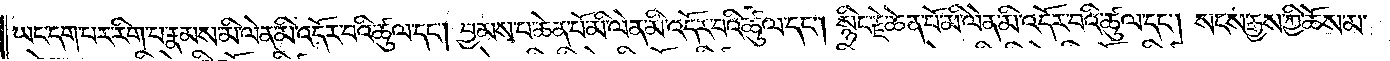ཡང་དག་པར་རིག་པ་རྣམས་མི་ལེན་མི་འདོར་བའི་ཚུལ་དང༌། བྱམས་པ་ཆེན་པོ་མི་ལེན་མི་འདོར་བའི་ཚུལ་དང༌། སྙིང་རྗེ་ཆེན་པོ་མི་ལེན་མི་འདོར་བའི་ཚུལ་དང༌། སངས་རྒྱས་ཀྱི་ཆོས་མ་
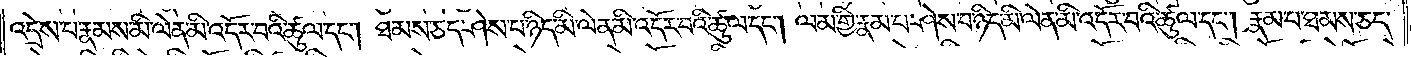འདྲེས་པ་རྣམས་མི་ལེན་མི་འདོར་བའི་ཚུལ་དང༌། ཐམས་ཅད་ཤེས་པ་ཉིད་མི་ལེན་མི་འདོར་བའི་ཚུལ་དང༌། ལམ་གྱི་རྣམ་པ་ཤེས་པ་ཉིད་མི་ལེན་མི་འདོར་བའི་ཚུལ་དང༌། རྣམ་པ་ཐམས་ཅད་
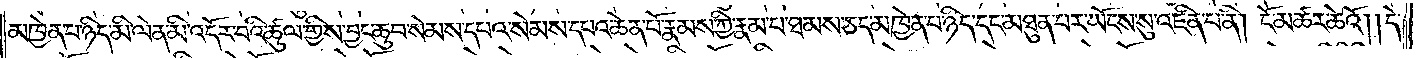མཁྱེན་པ་ཉིད་མི་ལེན་མི་འདོར་བའི་ཚུལ་གྱིས་བྱང་ཆུབ་སེམས་དཔའ་སེམས་དཔའ་ཆེན་པོ་རྣམས་ཀྱི་རྣམ་པ་ཐམས་ཅད་མཁྱེན་པ་ཉིད་དང་མཐུན་པར་ཡོངས་སུ་འཛིན་པ་ནི། ངོ་མཚར་ཆེའོ། །དེ་
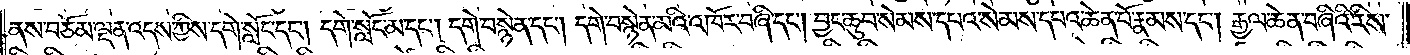ནས་བཅོམ་ལྡན་འདས་ཀྱིས་དགེ་སློང་དང༌། དགེ་སློང་མ་དང༌། དགེ་བསྙེན་དང༌། དགེ་བསྙེན་མའི་འཁོར་བཞི་དང༌། བྱང་ཆུབ་སེམས་དཔའ་སེམས་དཔའ་ཆེན་པོ་རྣམས་དང༌། རྒྱལ་ཆེན་བཞིའི་རིས་
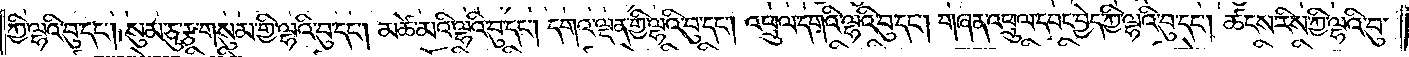ཀྱི་ལྷའི་བུ་དང༌། སུམ་ཅུ་རྩ་གསུམ་གྱི་ལྷའི་བུ་དང༌། མཚེ་མའི་ལྷའི་བུ་དང༌། དགའ་ལྡན་གྱི་ལྷའི་བུ་དང༌། འཕྲུལ་དགའི་ལྷའི་བུ་དང༌། གཞན་འཕྲུལ་དབང་བྱེད་ཀྱི་ལྷའི་བུ་དང༌། ཚངས་རིས་ཀྱི་ལྷའི་བུ་
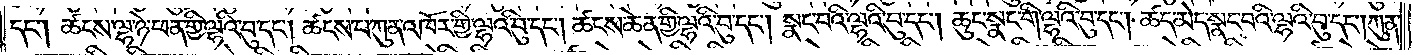དང༌། ཚངས་ལྷ་ཉེ་ཕན་གྱི་ལྷའི་བུ་དང༌། ཚངས་པ་ཀུན་འཁོར་གྱི་ལྷའི་བུ་དང༌། ཚངས་ཆེན་གྱི་ལྷའི་བུ་དང༌། སྣང་བའི་ལྷའི་བུ་དང༌། ཆུང་སྣང་གི་ལྷའི་བུ་དང༌། ཚད་མེད་སྣང་བའི་ལྷའི་བུ་དང༌། ཀུན་
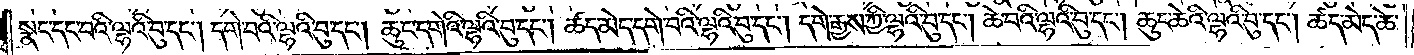སྣང་དང་བའི་ལྷའི་བུ་དང༌། དགེ་བའི་ལྷའི་བུ་དང༌། ཆུང་དགེའི་ལྷའི་བུ་དང༌། ཚད་མེད་དགེ་བའི་ལྷའི་བུ་དང༌། དགེ་རྒྱས་ཀྱི་ལྷའི་བུ་དང༌། ཆེ་བའི་ལྷའི་བུ་དང༌། ཆུང་ཆེའི་ལྷའི་བུ་དང༌། ཚད་མེད་ཆེ་
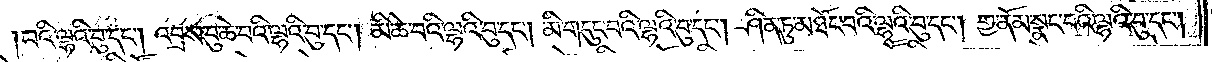བའི་ལྷའི་བུ་དང༌། འབྲས་བུ་ཆེ་བའི་ལྷའི་བུ་དང༌། མི་ཆེ་བའི་ལྷའི་བུ་དང༌། མི་གདུང་བའི་ལྷའི་བུ་དང༌། ཤིན་ཏུ་མཐོང་བའི་ལྷའི་བུ་དང༌། གྱ་ནོམ་སྣང་བའི་ལྷའི་བུ་དང༌།
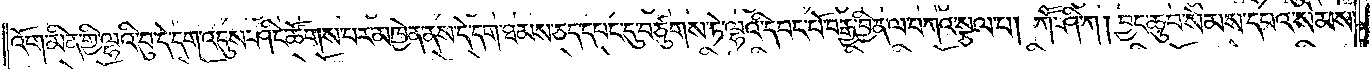འོག་མིན་གྱི་ལྷའི་བུ་དེ་དག་འདུས་ཤིང་ཚོགས་པར་མཁྱེན་ནས་དེ་དག་ཐམས་ཅད་དབང་དུ་བཙུགས་ཏེ་ལྷའི་དབང་པོ་བརྒྱ་བྱིན་ལ་བཀའ་སྩལ་པ། ཀཽ་ཤི་ཀ། བྱང་ཆུབ་སེམས་དཔའ་སེམས་
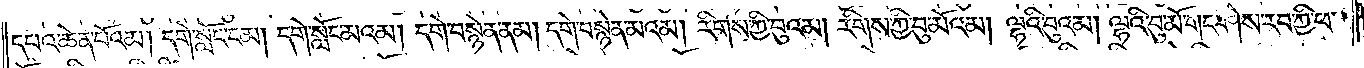དཔའ་ཆེན་པོ་འམ། དགེ་སློང་ངམ། དགེ་སློང་མའམ། དགེ་བསྙེན་ནམ། དགེ་བསྙེན་མའམ། རིགས་ཀྱི་བུའམ། རིགས་ཀྱི་བུ་མོའམ། ལྷའི་བུའམ། ལྷའི་བུ་མོ་གང་ཤེས་རབ་ཀྱི་ཕ་
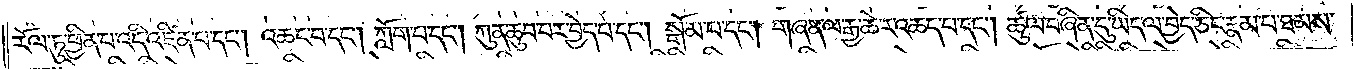རོལ་ཏུ་ཕྱིན་པ་འདི་འཛིན་པ་དང༌། འཆང་བ་དང༌། ཀློག་པ་དང༌། ཀུན་ཆུབ་པར་བྱེད་པ་དང༌། སྒོམ་པ་དང༌། གཞན་ལ་རྒྱ་ཆེར་འཆད་པ་དང༌། ཚུལ་བཞིན་དུ་ཡིད་ལ་བྱེད་ཅིང་རྣམ་པ་ཐམས་
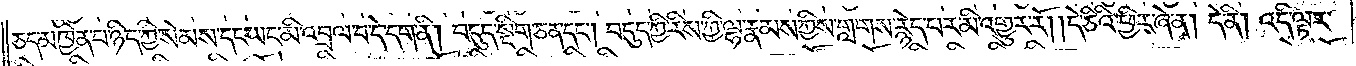ཅད་མཁྱེན་པ་ཉིད་ཀྱི་སེམས་དང་ཡང་མི་འབྲལ་བ་དེ་དག་ནི། བདུད་སྡིག་ཅན་དང༌། བདུད་ཀྱི་རིས་ཀྱི་ལྷ་རྣམས་ཀྱིས་གླགས་རྙེད་པར་མི་འགྱུར་རོ། །དེ་ཅིའི་ཕྱིར་ཞེ་ན། དེ་ནི། འདི་ལྟར་
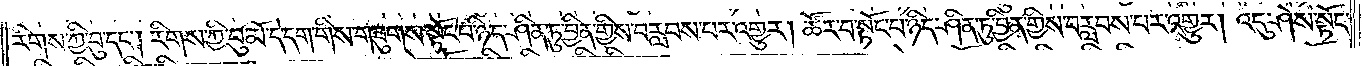རིགས་ཀྱི་བུ་དང༌། རིགས་ཀྱི་བུ་མོ་དེ་དག་གིས་གཟུགས་སྟོང་པ་ཉིད་ཤིན་ཏུ་བྱིན་གྱིས་བརླབས་པར་འགྱུར། ཚོར་བ་སྟོང་པ་ཉིད་ཤིན་ཏུ་བྱིན་གྱིས་བརླབས་པར་འགྱུར། འདུ་ཤེས་སྟོང་
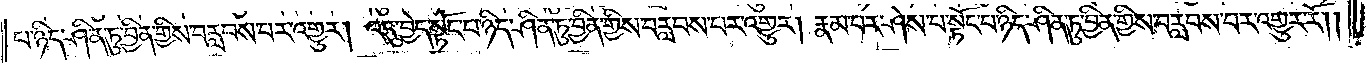པ་ཉིད་ཤིན་ཏུ་བྱིན་གྱིས་བརླབས་པར་འགྱུར། འདུ་བྱེད་སྟོང་པ་ཉིད་ཤིན་ཏུ་བྱིན་གྱིས་བརླབས་པར་འགྱུར། རྣམ་པར་ཤེས་པ་སྟོང་པ་ཉིད་ཤིན་ཏུ་བྱིན་གྱིས་བརླབས་པར་འགྱུར་རོ༎
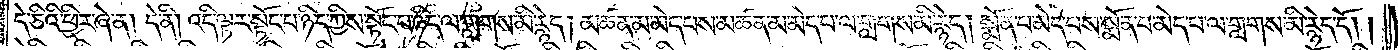དེ་ཅིའི་ཕྱིར་ཞེ་ན། དེ་ནི། འདི་ལྟར་སྟོང་པ་ཉིད་ཀྱིས་སྟོང་པ་ཉིད་ལ་གླགས་མི་རྙེད། མཚན་མ་མེད་པས་མཚན་མ་མེད་པ་ལ་གླགས་མི་རྙེད། སྨོན་པ་མེད་པས་སྨོན་པ་མེད་པ་ལ་གླགས་མི་རྙེད་དོ། །
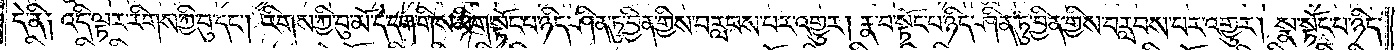དེ་ནི། འདི་ལྟར་རིགས་ཀྱི་བུ་དང༌། རིགས་ཀྱི་བུ་མོ་དེ་དག་གིས་མིག་སྟོང་པ་ཉིད་ཤིན་ཏུ་བྱིན་གྱིས་བརླབས་པར་འགྱུར། རྣ་བ་སྟོང་པ་ཉིད་ཤིན་ཏུ་བྱིན་གྱིས་བརླབས་པར་འགྱུར། སྣ་སྟོང་པ་ཉིད་
